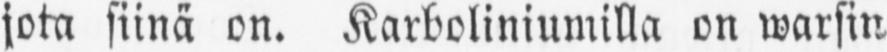jota siinä on. Karboliniumilla on warsin
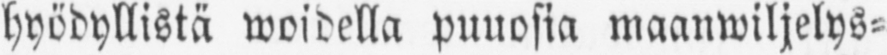hyödyllistä woidella puuosia maanwiljelys-
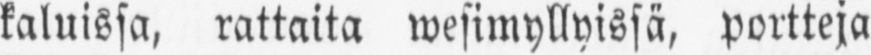kaluissa, rattaita wesimyllyissä, portteja,
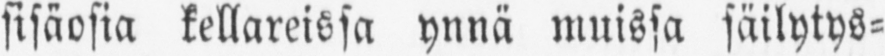sisäosia kellareissa ynnä muissa säilytys-
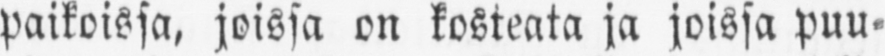paikoissa, joissa on kosteata ja joissa puu-
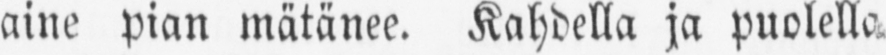aine pian mätänee. Kahdella ja puolella
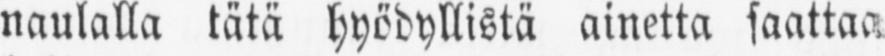naulalla tätä hyödyllistä ainetta saattaa
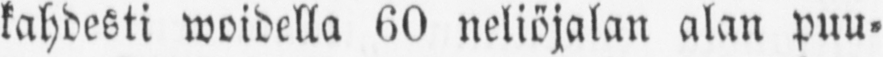kahdesti woidella 60 neliöjalan alan puu-
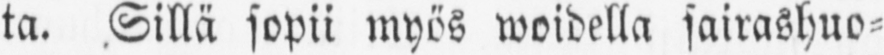ta. Sillä sopii myös woidella sairashuo-
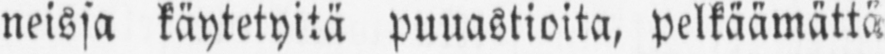neissa käytetyttä puuastioita, pelkäämättä
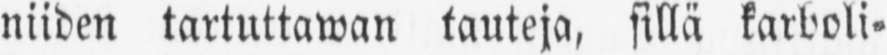niiden tartuttawan tauteja, sillä karboli-
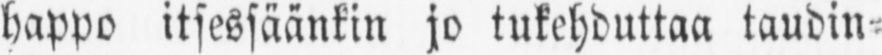happo itsessäänkin jo tukehduttaa taudin-
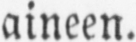aineen.
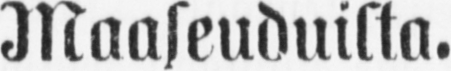Maaseuduilta.
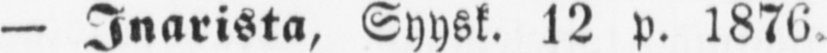— Inarista, Syysk. 12 p. 1876,
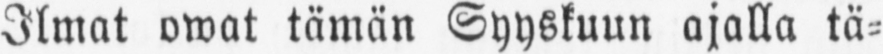Ilmat owat tämän Syyskuun ajalla tä-
